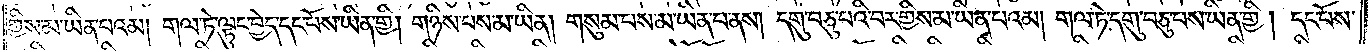གྱིས་མ་ཡིན་པའམ། གལ་ཏེ་ལྟུང་བྱེད་དང་པོས་ཡིན་གྱི། གཉིས་པས་མ་ཡིན། གསུམ་པས་མ་ཡིན་པ་ནས། དགུ་བཅུ་བའི་བར་གྱིས་མ་ཡིན་པའམ། གལ་ཏེ་དགུ་བཅུ་པས་ཡིན་གྱི། དང་པོས་
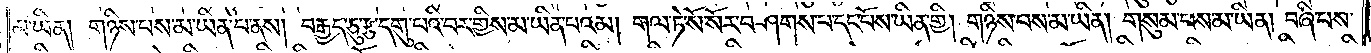མ་ཡིན། གཉིས་པས་མ་ཡིན་པ་ནས། བརྒྱད་ཅུ་རྩ་དགུ་པའི་བར་གྱིས་མ་ཡིན་པའམ། གལ་ཏེ་སོ་སོར་བཤགས་པ་དང་པོས་ཡིན་གྱི། གཉིས་པས་མ་ཡིན། གསུམ་པས་མ་ཡིན། བཞི་པས་
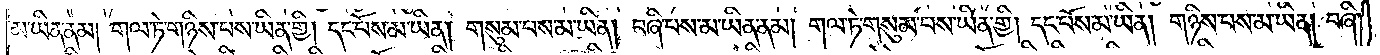མ་ཡིན་ནམ། གལ་ཏེ་གཉིས་པས་ཡིན་གྱི། དང་པོས་མ་ཡིན། གསུམ་པས་མ་ཡིན། བཞི་པས་མ་ཡིན་ནམ། གལ་ཏེ་གསུམ་པས་ཡིན་གྱི། དང་པོས་མ་ཡིན། གཉིས་པས་མ་ཡིན། བཞི་
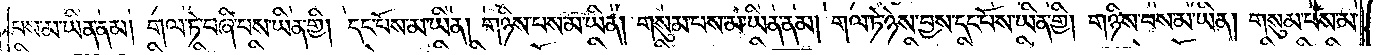པས་མ་ཡིན་ནམ། གལ་ཏེ་བཞི་པས་ཡིན་གྱི། དང་པོས་མ་ཡིན། གཉིས་པས་མ་ཡིན། གསུམ་པས་མ་ཡིན་ནམ། གལ་ཏེ་ཉེས་བྱས་དང་པོས་ཡིན་གྱི། གཉིས་པས་མ་ཡིན། གསུམ་པས་མ་
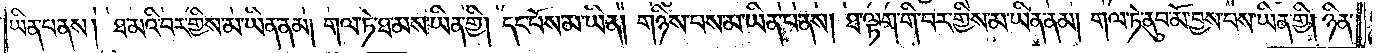ཡིན་པ་ནས། ཐ་མའི་བར་གྱིས་མ་ཡིན་ནམ། གལ་ཏེ་ཐ་མས་ཡིན་གྱི། དང་པོས་མ་ཡིན། གཉིས་པས་མ་ཡིན་པ་ནས། ཐ་ལྟག་གི་བར་གྱིས་མ་ཡིན་ནམ། གལ་ཏེ་ནུབ་མོ་བྱས་པས་ཡིན་གྱི། ཉིན་
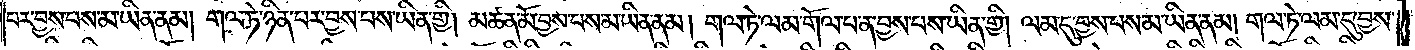པར་བྱས་པས་མ་ཡིན་ནམ། གལ་ཏེ་ཉིན་པར་བྱས་པས་ཡིན་གྱི། མཚན་མོ་བྱས་པས་མ་ཡིན་ནམ། གལ་ཏེ་ལམ་གོལ་པ་ན་བྱས་པས་ཡིན་གྱི། ལམ་དུ་བྱས་པས་མ་ཡིན་ནམ། གལ་ཏེ་ལམ་དུ་བྱས་
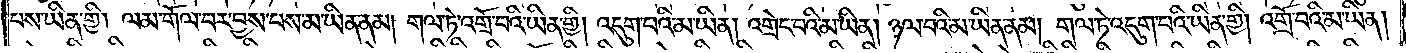པས་ཡིན་གྱི། ལམ་གོལ་བར་བྱས་པས་མ་ཡིན་ནམ། གལ་ཏེ་འགྲོ་བའི་ཡིན་གྱི། འདུག་པའི་མ་ཡིན། འགྲེང་བའི་མ་ཡིན། ཉལ་བའི་མ་ཡིན་ནམ། གལ་ཏེ་འདུག་པའི་ཡིན་གྱི། འགྲོ་བའི་མ་ཡིན།
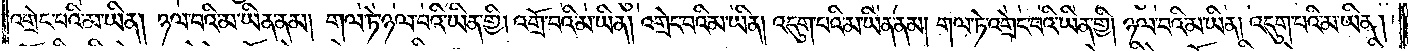འགྲེང་བའི་མ་ཡིན། ཉལ་བའི་མ་ཡིན་ནམ། གལ་ཏེ་ཉལ་བའི་ཡིན་གྱི། འགྲོ་བའི་མ་ཡིན། འགྲེང་བའི་མ་ཡིན། འདུག་པའི་མ་ཡིན་ནམ། གལ་ཏེ་འགྲེང་བའི་ཡིན་གྱི། ཉལ་བའི་མ་ཡིན། འདུག་པའི་མ་ཡིན།
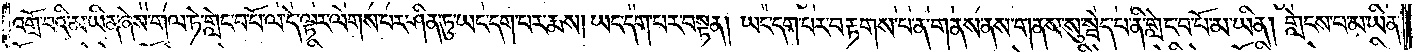འགྲོ་བའི་མ་ཡིན་ཞེས་གལ་ཏེ་གླེང་བ་པོ་ལ་དེ་ལྟར་ལེགས་པར་ཤིན་ཏུ་ཡང་དག་པར་རྨས། ཡང་དག་པར་བསྟན། ཡང་དག་པར་བརྟགས་པ་ན་གནས་ནས་གནས་སུ་སྦེད་པ་ནི་གླེང་བ་པོ་མ་ཡིན། གླེངས་པ་མ་ཡིན་
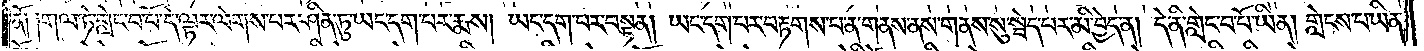ནོ ༏༏ གལ་ཏེ་གླེང་བ་པོ་དེ་ལྟར་ལེགས་པར་ཤིན་ཏུ་ཡང་དག་པར་རྨས། ཡང་དག་པར་བསྟན། ཡང་དག་པར་བརྟགས་པ་ན་གནས་ནས་གནས་སུ་སྦེད་པར་མི་བྱེད་ན། དེ་ནི་གླེང་བ་པོ་ཡིན། གླེངས་པ་ཡིན་
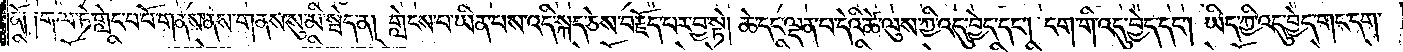ནོ༑ ༑གལ་ཏེ་གླེང་བ་པོ་གནས་ནས་གནས་སུ་མི་སྦེད་ན། གླེངས་པ་ཡིན་པས་འདི་སྐད་ཅེས་བརྗོད་པར་བྱ་སྟེ། ཆེ་དང་ལྡན་པ་དེའི་ཆེ་ལུས་ཀྱི་འདུ་བྱེད་དང༌། ངག་གི་འདུ་བྱེད་དང༌། ཡིད་ཀྱི་འདུ་བྱེད་གང་དག་
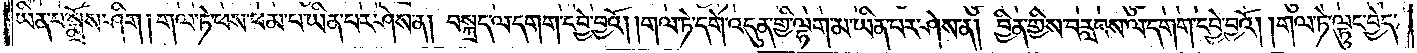ཡིན་པ་སྨྲོས་ཤིག། གལ་ཏེ་ཕས་ཕམ་པ་ཡིན་པར་ཤེས་ན། བསྐྲད་ལ་དགག་དབྱེ་བྱའོ། །གལ་ཏེ་དགེ་འདུན་གྱི་ལྷག་མ་ཡིན་པར་ཤེས་ན། བྱིན་གྱིས་བརླབས་ལ་དགག་དབྱེ་བྱའོ། །གལ་ཏེ་ལྟུང་བྱེད་
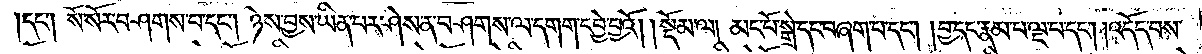དང༌། སོ་སོར་བཤགས་པ་དང༌། ཉེས་བྱས་ཡིན་པར་ཤེས་ན་བཤགས་ལ་དགག་དབྱེ་བྱའོ།    །སྡོམ་ལ། མང་པོ་སྒྲེ་དང་བཞག་པ་དང༌། །བྱ་དང་རྣམ་པ་ལྔ་པ་དང༌། །འདོད་བས་
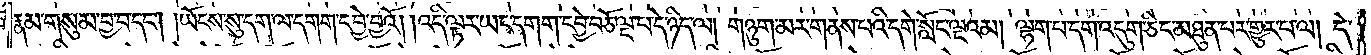རྣམ་གསུམ་བྱ་བ་དང༌། །ཡོངས་སུ་དག་ལ་དགག་དབྱེ་བྱའོ། །འདི་ལྟར་ཡང་དགག་དབྱེ་བཅོ་ལྔ་པ་དེ་ཉིད་ལ། གཉུག་མར་གནས་པའི་དགེ་སློང་ལྔའམ། ལྷག་པ་དག་འདུག་ཅིང་མཐུན་པར་གྱུར་པ་ལ། དེ་
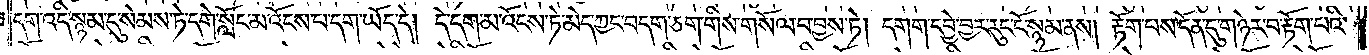དག་འདི་སྙམ་དུ་སེམས་ཏེ་དགེ་སློང་མ་འོངས་པ་དག་ཡོད་དེ། དེ་དག་མ་འོངས་ཏེ་མེད་ཀྱང་བདག་ཅག་གིས་གསོལ་བ་བྱས་ཏེ། དགག་དབྱེ་བྱར་རུང་ངོ་སྙམ་ནས། རྟོག་པས་དོན་དུ་གཉེར་བ་རྟོག་པའི་
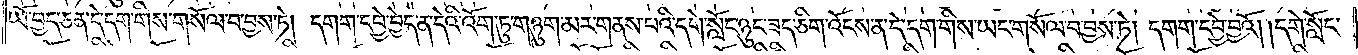ཡོ་བྱད་ཅན་དེ་དག་གིས་གསོལ་བ་བྱས་ཏེ། དགག་དབྱེ་བྱེད་ན་དེའི་འོག་ཏུ་གཉུག་མར་གནས་པའི་དགེ་སློང་ཉུང་ཟད་ཅིག་འོངས་ན་དེ་དག་གིས་ཡང་གསོལ་བ་བྱས་ཏེ། དགག་དབྱེ་བྱའོ། །དགེ་སློང་
